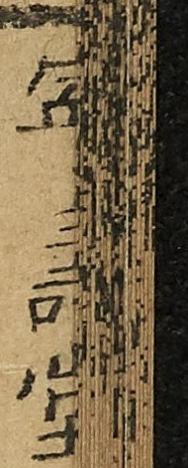寧壽堂
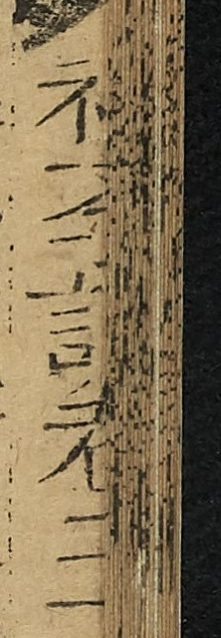初學記卷二十
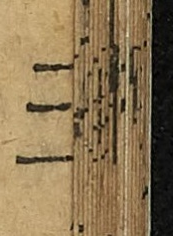三
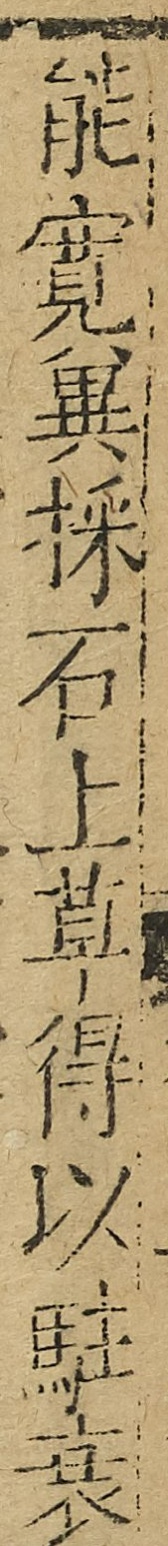能寬冀採石上草得以駐衰
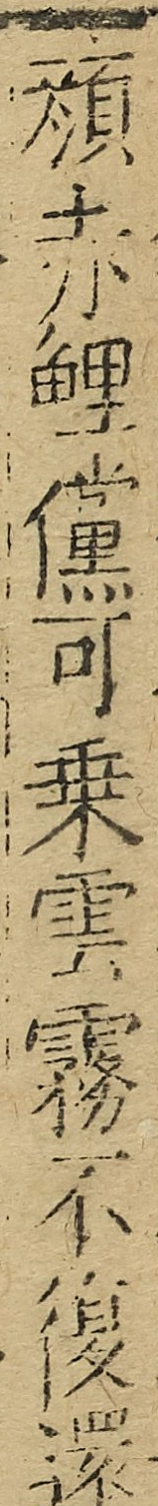顏赤鯉儻可乘雲霧不復還
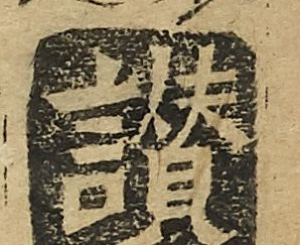讚
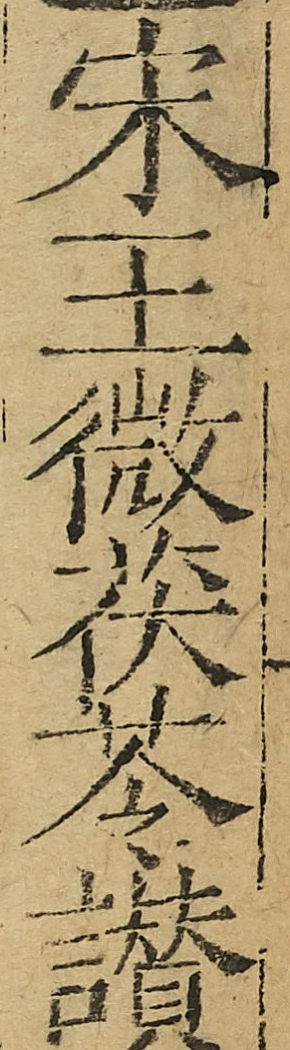宋王微茯苓讚
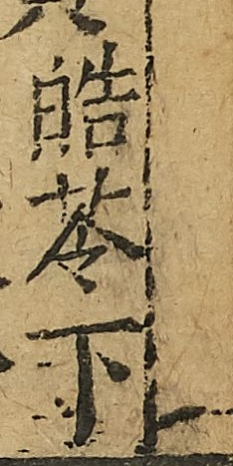皓苓下
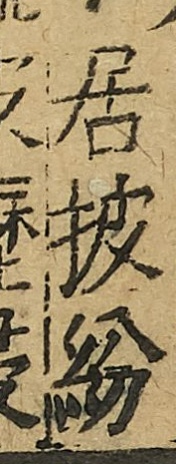居披紛
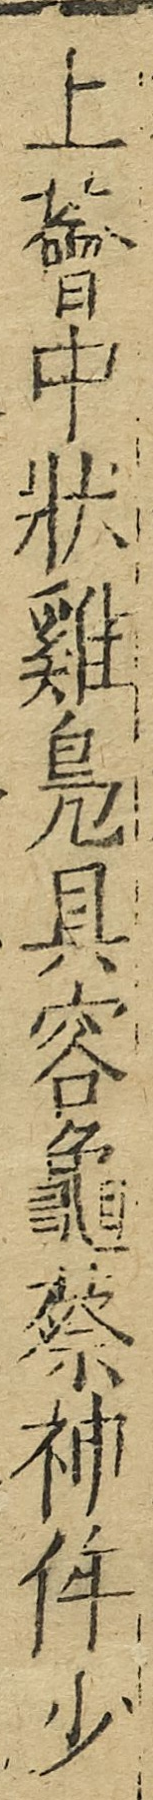上薈中狀鷄鳧具容龜蔡神侔少
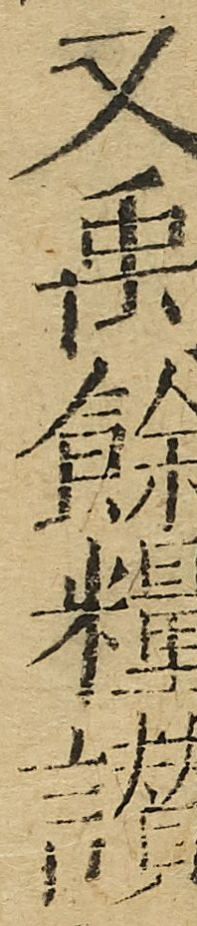又禹餘糧讚
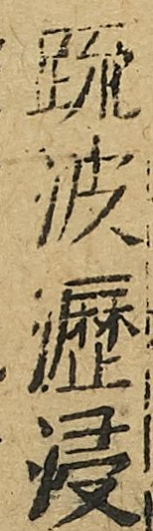疎波瀝浸
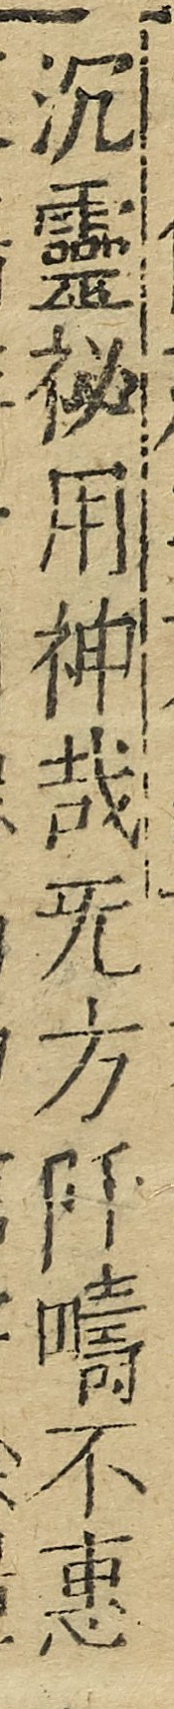沉靈秘用神哉無方阡疇不惠
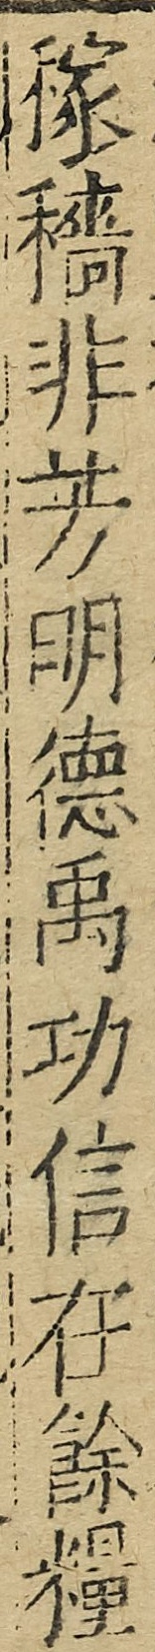稼穡非芳明德禹功信在餘糧
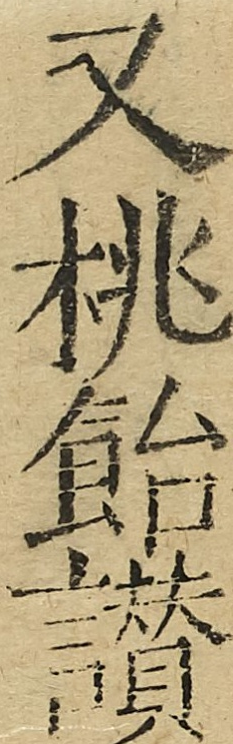又桃飴讚
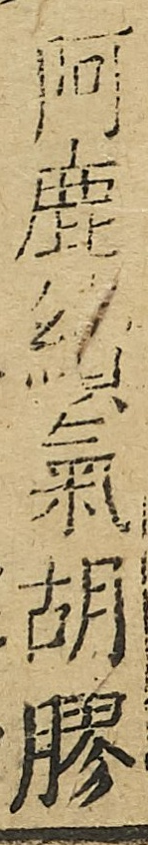阿鹿續氣胡膠
